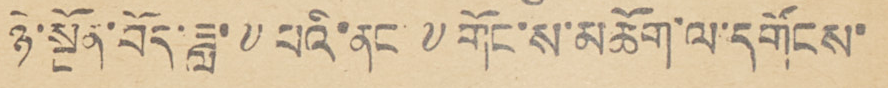ཉེ་སྔོན་བོད་ཟླ་ ༧ པའི་ནང ༸གོང་ས་མཆོག་ལ་དགོངས་
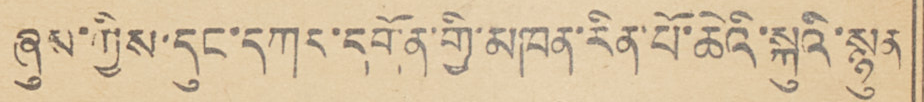ཞུས་ཀྱིས་དུང་དཀར་དགོན་གྱི་མཁན་རིན་པོ་ཆེའི་སྐུའི་སྙུན
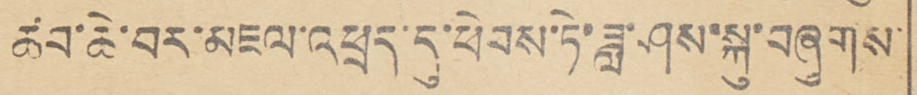ཚབ་ཆེ་བར་མཇལ་འཕྲད་དུ་ཕེབས་ཏེ་ཟླ་ཤས་སྐུ་བཞུགས་
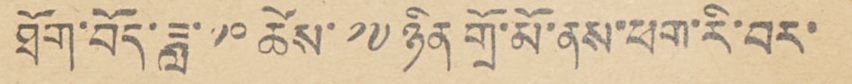ཐོག་བོད་ཟླ་ ༡༠ ཚེས་ ༡༧ ཉིན གྲོ་མོ་ནས་ཕག་རི་བར་
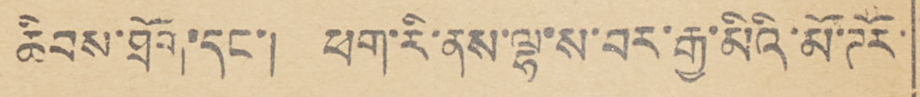ཆིབས་ཐོག་དང་། ཕག་རི་ནས་ལྷ་ས་བར་རྒྱ་མིའི་མོ་ཊོར་
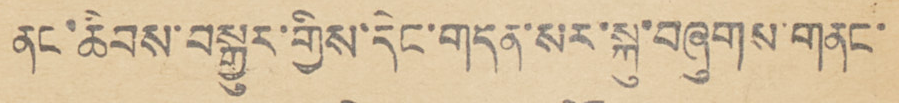ནང་ཆིབས་བསྒྱུར་གྱིས་དེང་གདན་སར་སྐུ་བཞུགས་གནང་
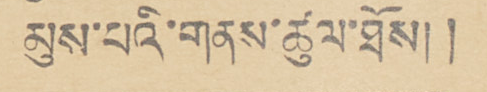མུས་པའི་གནས་ཚུལ་ཐོས། །
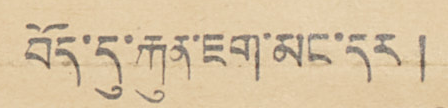བོད་དུ་རྐུན་ཇག་མང་དར །
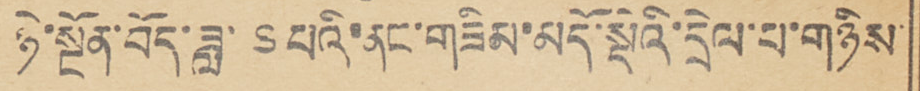ཉེ་སྔོན་བོད་ཟླ་ ༦ པའི་ནང་གཟིམ་མདོ་སྡེའི་དྲེལ་པ་གཉིས་
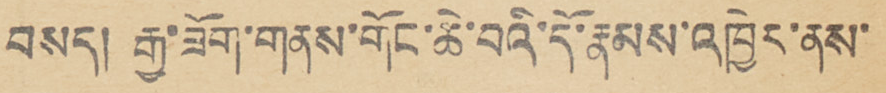བསད། རྒྱ་ཟོག་གནས་གོང་ཆེ་བའི་དོ་རྣམས་འཁྱེར་ནས་
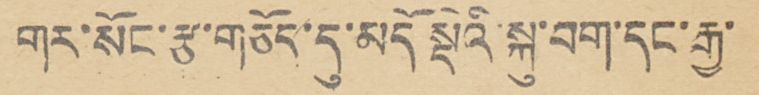གར་སོང་རྩ་གཅོད་དུ་མདོ སྡེའི་སྐུ་བག་དང་རྒྱ་
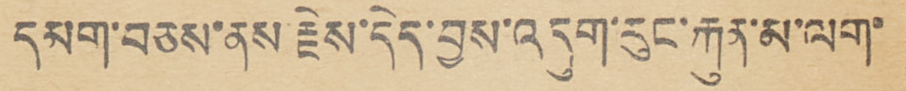དམག་བཅས་ནས རྗེས་དེད་བྱས་འདུག་རུང་རྐུན་མ་ལག་
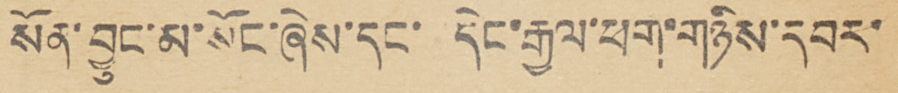སོན་བྱུང་མ་སོང་ཞེས་དང་ དེང་རྒྱལ་ཕག་གཉིས་དབར་
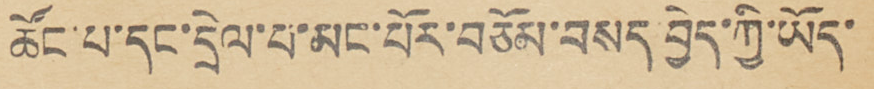ཚོང་པ་དང་དྲེལ་པ་མང་པོར་བཅོམ་བསད་བྱེད་ཀྱི་ཡོད་
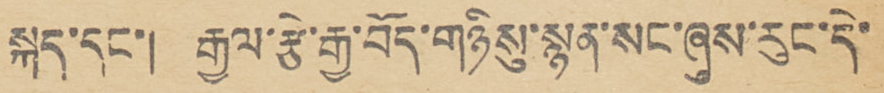སྐད་དང་། རྒྱལ་རྩེ་རྒྱ་བོད་གཉིསུ་སྙན་སང་ཞུས་རུང་དེ་
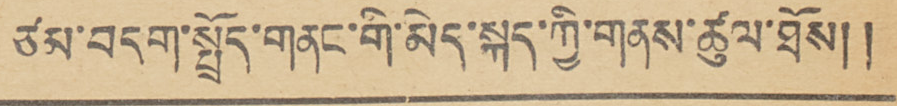ཙམ་བདག་སྤྲོད་གནང་གི་མེད་སྐད་ཀྱི་གནས་ཚུལ་ཐོས། །
